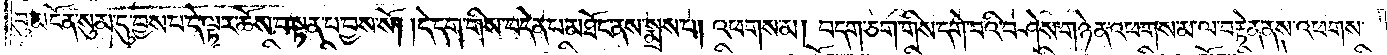བུ་མངོན་སུམ་དུ་བྱས་པ་དེ་ལྟར་ཆོས་བསྟན་པ་བྱས་སོ། །དེ་དག་གིས་བདེན་པ་མཐོང་ནས་སྨྲས་པ། འཕགས་མ། བདག་ཅག་གིས་དགེ་བའི་བཤེས་གཉེན་འཕགས་མ་ལ་བརྟེན་ནས་འཕགས་
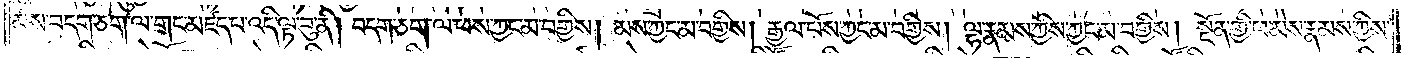མས་བདག་ཅག་ལ་གང་མཛད་པ་འདི་ལྟ་བུ་ནི། བདག་ཅག་ལ་ཕས་ཀྱང་མ་བགྱིས། མས་ཀྱང་མ་བགྱིས། རྒྱལ་པོས་ཀྱང་མ་བགྱིས། ལྷ་རྣམས་ཀྱིས་ཀྱང་མ་བགྱིས། སྔོན་གྱི་ཕ་མེས་རྣམས་ཀྱིས་
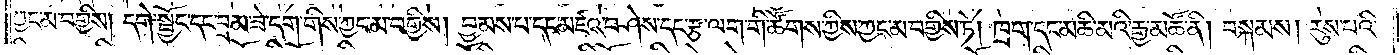ཀྱང་མ་བགྱིས། དགེ་སྦྱོང་དང་བྲམ་ཟེ་དག་གིས་ཀྱང་མ་བགྱིས། བྱམས་པ་དང་མཛའ་བཤེས་དང་རྩ་ལག་གི་ཚོགས་ཀྱིས་ཀྱང་མ་བགྱིས་ཏེ། ཁྲག་དང་མཆི་མའི་རྒྱ་མཚོ་ནི། བསྐམས། རུས་པའི་
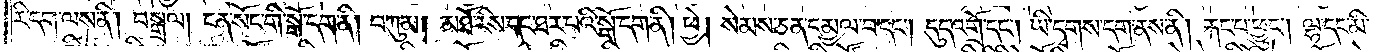རི་དག་ལས་ནི། བསྒྲལ། ངན་སོང་གི་སྒོ་དག་ནི། བཀུམ། མཐོ་རིས་དང་ཐར་པའི་སྒོ་དག་ནི། ཕྱེ། སེམས་ཅན་དམྱལ་བ་དང༌། དུད་འགྲོ་དང༌། ཡི་དྭགས་དག་ནས་ནི། རྐང་པ་ཕྱུང༌། ལྷ་དང་མི་
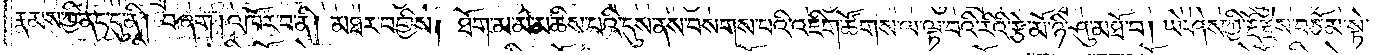རྣམས་ཀྱི་ནང་དུ་ནི། བཞག །འཁོར་བ་ནི། མཐར་བགྱིས། ཐོག་མ་མ་མཆིས་པའི་དུས་ནས་བསགས་པའི་འཇིག་ཚོགས་ལ་ལྟ་བའི་རིའི་རྩེ་མོ་ཉི་ཤུ་མཐོ་བ། ཡེ་ཤེས་ཀྱི་རྡོ་རྗེས་བཅོམ་སྟེ་
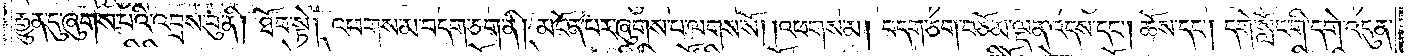རྒྱུན་དུ་ཞུགས་པའི་འབྲས་བུ་ནི། ཐོབ་སྟེ། འཕགས་མ་བདག་ཅག་ནི། མངོན་པར་ཞུགས་པ་ལགས་སོ། །འཕགས་མ། བདག་ཅག་བཅོམ་ལྡན་འདས་དང༌། ཆོས་དང༌། དགེ་སློང་གི་དགེ་འདུན་
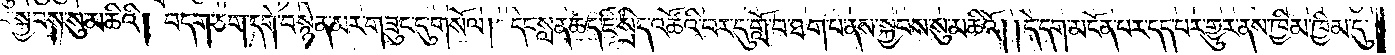ལ་སྐྱབས་སུ་མཆིའི། བདག་ཅག་དགེ་བསྙེན་མར་གཟུང་དུ་གསོལ། དེང་སླན་ཆད་ཇི་སྲིད་འཚོའི་བར་དུ་གློ་བ་ཐག་པ་ནས་སྐྱབས་སུ་མཆིའོ། །དེ་དག་མངོན་པར་དད་པར་གྱུར་ནས་ཁྱིམ་ཁྱིམ་དུ་
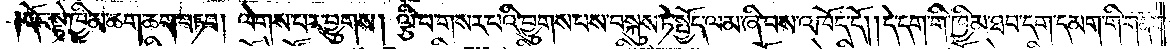དོང་སྟེ་ཁྱིམ་ཆག་ཆག་བཏབ། ལེགས་པར་བྱུགས། ལྕི་བ་གསར་པའི་བྱུགས་པས་བསྐུས་ཏེ་སྤྱོད་ལམ་ཞི་བས་འཁོད་དོ། །དེ་དག་གི་ཁྱིམ་ཐབ་དག་དམག་གི་གནས་
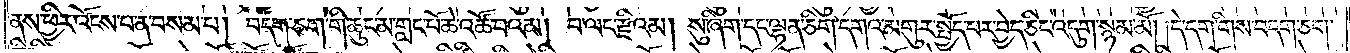ནས་ཕྱིར་འོངས་པ་ན་བསམ་པ། བདག་ཅག་གི་ཆུང་མ་གླང་པོ་ཆེ་འཚོ་བའམ། བ་ལང་རྫིའམ། སུ་ཞིག་དང་ལྷན་ཅིག་དགའ་མགུར་སྤྱོད་པར་བྱེད་ཅིང་འདུག་སྙམ་མོ། །དེ་དག་གིས་བདག་ཅག་
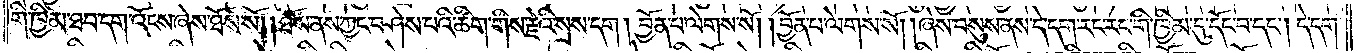གི་ཁྱིམ་ཐབ་དག་འོངས་ཞེས་ཐོས་སོ། །ཐོས་ནས་ཀྱང་བཤེས་པའི་ཚིག་གིས་རྗེའི་སྲས་དག །བྱོན་པ་ལེགས་སོ། །བྱོན་པ་ལེགས་སོ། །ཞེས་བསུས་ནས་དེ་དག་རང་རང་གི་ཁྱིམ་དུ་དོང་བ་དང༌། དེ་དག་
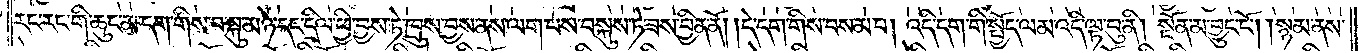རང་རང་གི་ཆུང་མ་དག་གིས་བསྐུ་མཉེ་དང་དྲིལ་ཕྱི་བྱས་ཏེ་ཁྲུས་བྱས་ནས་ལག་པས་བསྐུས་ཏེ་ཟས་བྱིན་ནོ། །དེ་དག་གིས་བསམ་པ། འདི་དག་གི་སྤྱོད་ལམ་འདི་ལྟ་བུ་ནི། སྔོན་མ་བྱུང་ངོ༌། །སྙམ་ནས་
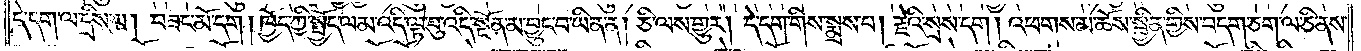དེ་དག་ལ་དྲིས་པ། བཟང་མོ་དག །ཁྱོད་ཀྱི་སྤྱོད་ལམ་འདི་ལྟ་བུ་འདི་སྔོན་མ་བྱུང་བ་ཡིན་ན། ཅི་ལས་གྱུར། དེ་དག་གིས་སྨྲས་པ། རྗེའི་སྲས་དག ། འཕགས་མ་ཆོས་སྦྱིན་གྱིས་བདག་ཅག་ལ་ཅི་ནས་
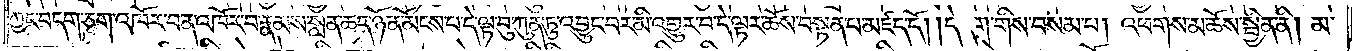ཀྱང་བདག་ཅག་འཁོར་བ་ན་འཁོར་བ་རྣམས་སླན་ཆད་ཉོན་མོངས་པ་དེ་ལྟ་བུ་ཀུན་ཏུ་འབྱུང་བར་མི་འགྱུར་བ་དེ་ལྟར་ཆོས་བསྟན་པ་མཛད་དོ། །དེ་དག་གིས་བསམ་པ། འཕགས་མ་ཆོས་སྦྱིན་ནི། མ་
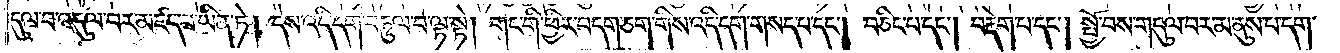དུལ་བ་འདུལ་བར་མཛད་པ་ཡིན་ཏེ། དེས་འདི་དག་བཏུལ་བ་ལྟ་སྟེ། གང་གི་ཕྱིར་བདག་ཅག་གིས་འདི་དག་གསད་པ་དང༌། བཅིང་པ་དང༌། བརྡེག་པ་དང༌། སྤྱོ་བས་གདུལ་བར་མ་ནུས་པ་དག་
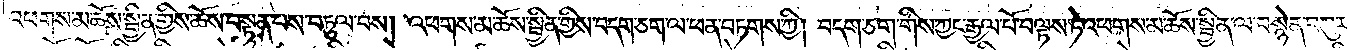འཕགས་མ་ཆོས་སྦྱིན་གྱིས་ཆོས་བསྟན་པས་བཏུལ་བས། འཕགས་མ་ཆོས་སྦྱིན་གྱིས་བདག་ཅག་ལ་ཕན་བཏགས་ཀྱི། བདག་ཅག་གིས་ཀྱང་རྒྱལ་པོ་བལྟས་ཏེ་འཕགས་མ་ཆོས་སྦྱིན་ལ་བསྙེན་བཀུར་བྱའོ༎
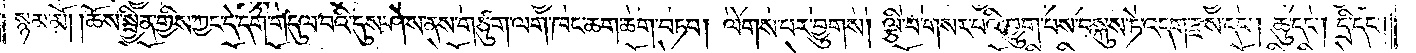སྙམ་མོ། །ཆོས་སྦྱིན་གྱིས་ཀྱང་དེ་དག་གདུལ་བའི་དུས་ཤེས་ནས་གཙུག་ལག་ཁང་ཆག་ཆག་བཏབ། ལེགས་པར་བྱུགས། ལྕི་བ་གསར་པའི་བྱུག་པས་བསྐུས་ཏེ་འདག་རྫས་དང༌། ཆུ་དང༌། དྲི་དང༌།
